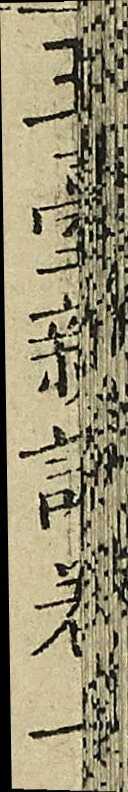玉臺新詠卷一
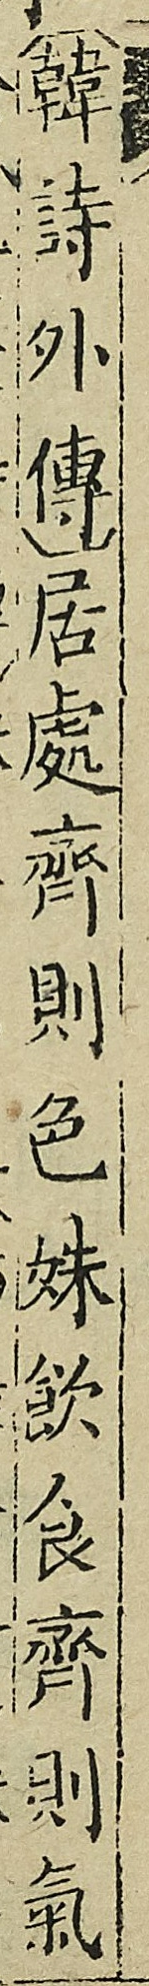（韓詩外傳）居處齊則色姝飲食齊則氣
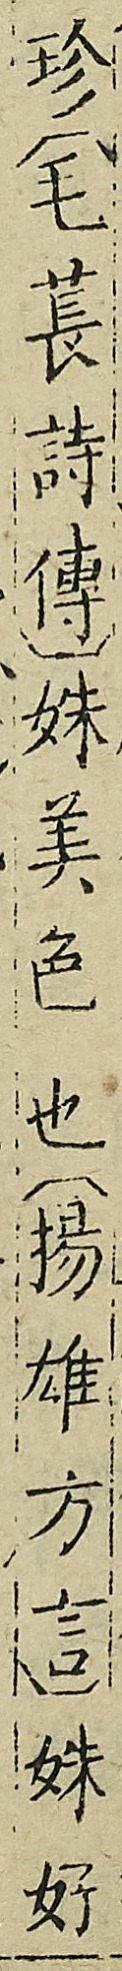珍（毛萇詩傳）姝美色也（揚雄方言）姝好
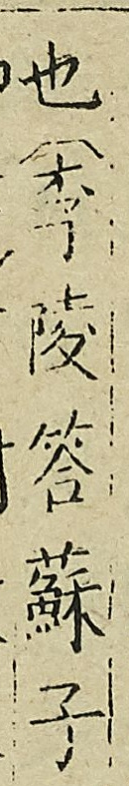也（李陵答蘇子
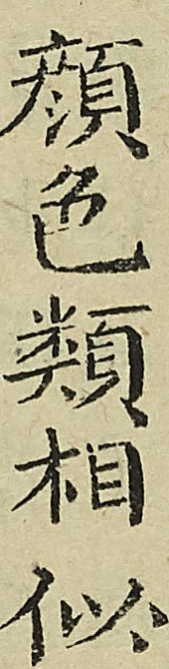顏色類相似
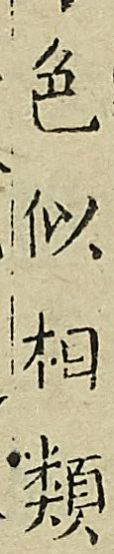色似相類
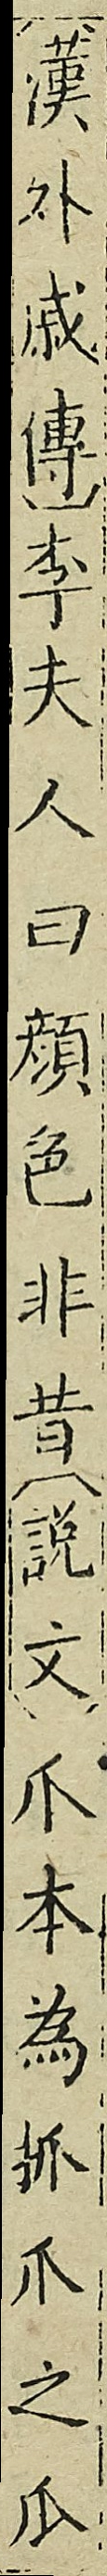（漢外戚傳）李夫人曰顏色非昔（說文）爪本為抓爪之瓜
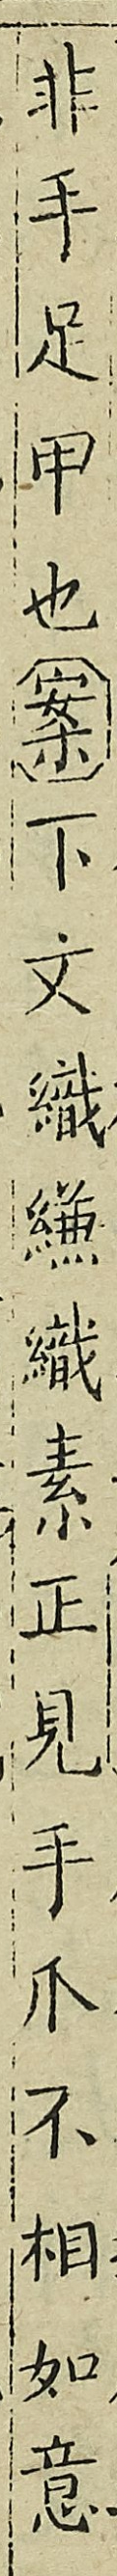非手足甲也（案）下文織縑織素正見手爪不相如意
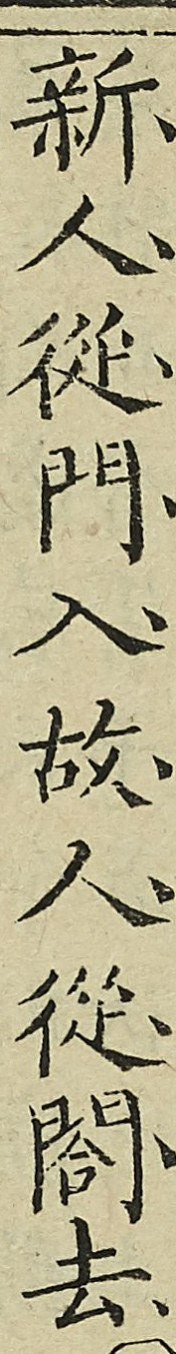新人從門入故人從閤去
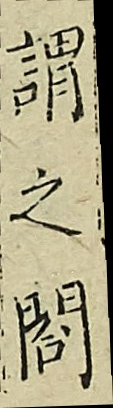謂之閤
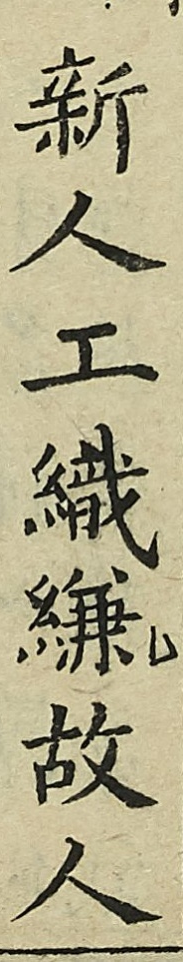新人工織縑故人
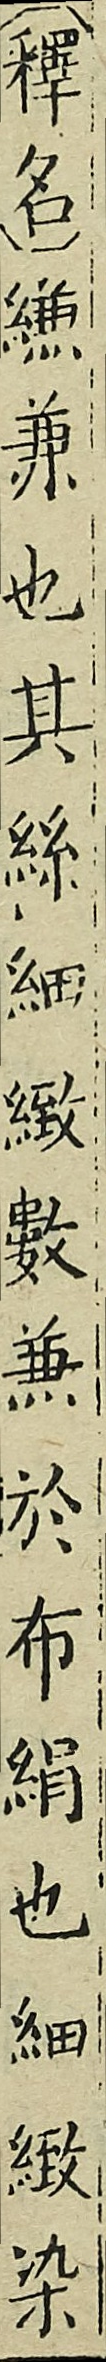（釋名）縑兼也其絲細數兼於布絹也細緻染
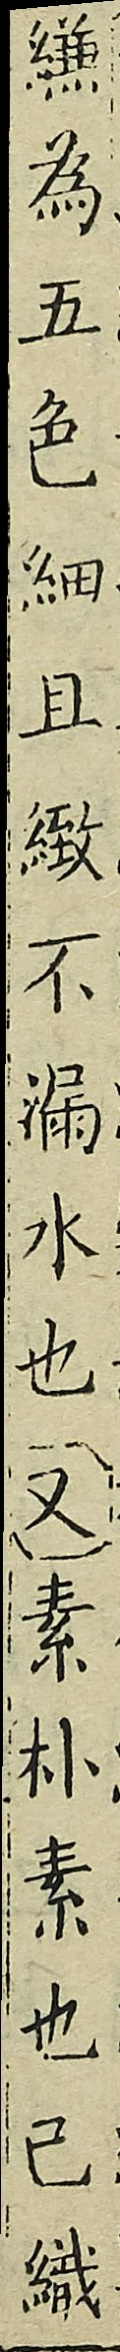縑為五色細且緻不漏水也（又）素朴素也已織
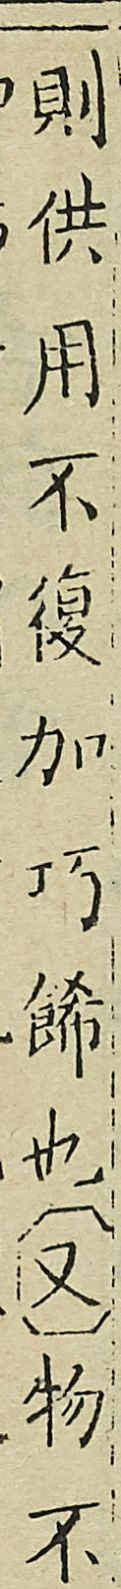則供用不復加巧飾也（又）物不
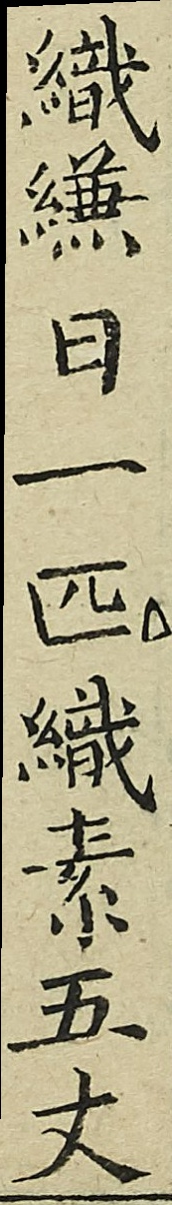織縑日一匹織素五丈
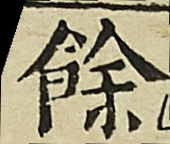餘
